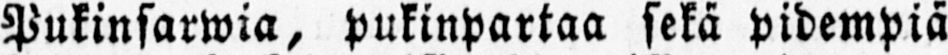Pukinsarwia, pukinpartaa sekä pidempiä
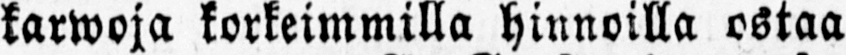karwoja korkeimmilla hinnoilla ostaa
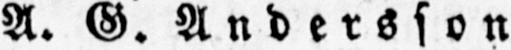A.G. Andersson
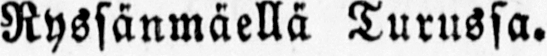Ryssänmäellä Turussa.
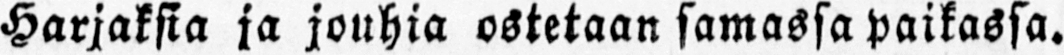Harjaksia ja jouhia ostetaan samassa paikassa.
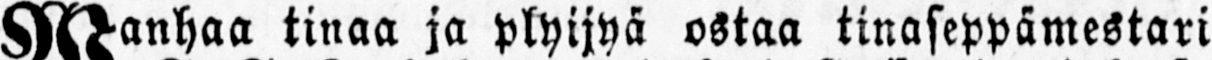Wanhaa tinaa ja plyijyä ostaa tinaseppämestari
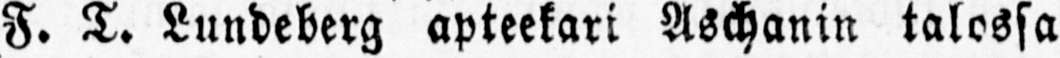F . T. Lundeberg apteekari Aschanin talossa
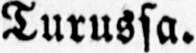Turussa.
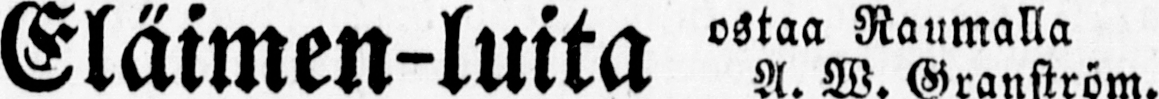Eläimen-luita ostaa Raumalla
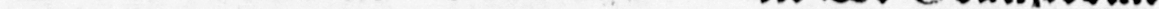A. W. Granström.
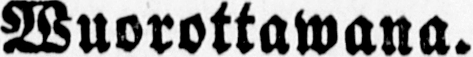Wuorottawana.
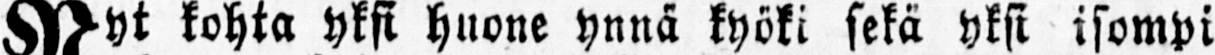Nyt kohta yksi huone ynnä kyöki sekä yksi isompi
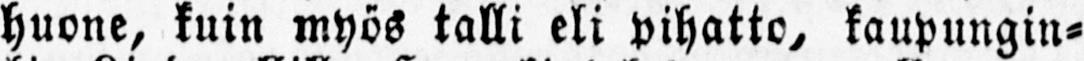huone, kuin myös talli eli pihatto, kaupungin-
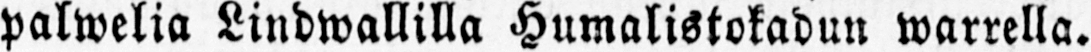palwelia Lindwallilla Humalistokadun warrella.
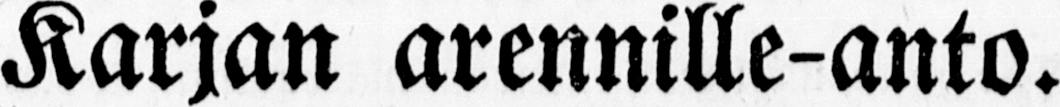Karjan arennille-anto.
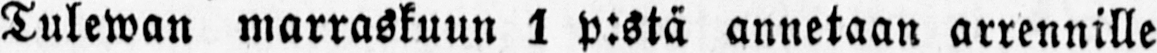Tulewan marraskuun 1 p:stä annetaan arrennille
